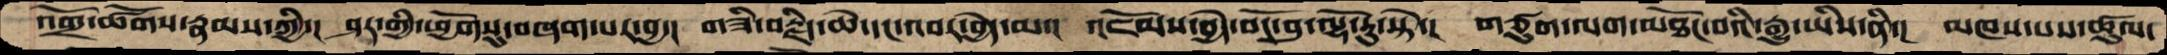འགྲོ་ཚོགས་རྣམས་ཀྱི་།  ཤར་གྱི་ཕྱོགསུ་བཞག་པར་བྱ་།  གཟི་བརྗིད་ཆེ་དང་འབར་བྱེད་མ་།  འཇོམས་བྱེད་བོང་བུ་ལྷོ་རུ་སྟེ་།  གཙུག་ལག་མཐོང་བའི་རྒྱུ་ཡིས་ནི་།  མཁས་པས་ཚུལ་
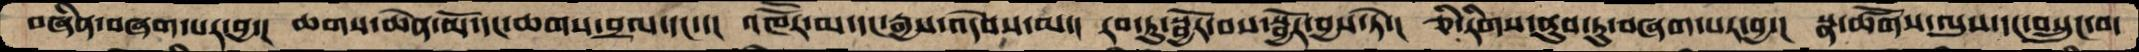བཞིན་བཞག་པར་བྱ་།  ཆགས་ཆེན་མོ་དང་ཆགས་བྲལ་དང་་།  འཁཽར་མ་དང་རྒྱས་འདེབས་མ་།  རབ་ཏུ་སྦྱོར་བས་སྦྱོར་བྱས་ཏེ་།  ཅི་རིགས་ནུབ་ཏུ་བཞག་པར་བྱ་།  སྣ་ཚོགས་ལུས་དང་བསྲུང་བ་
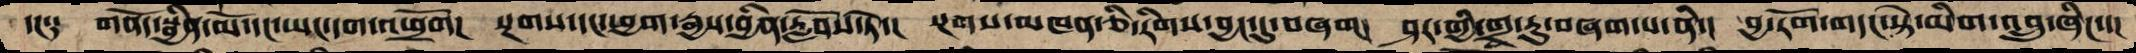དང༑   གནོོད་སྦྱིན་མོ་དང་ཡང་དག་འཕྲོག།   སྔགས་དང་ཕྱག་རྒྱས་བྱིན་རློབས་ཏེ་།  སྔགས་མཁན་ཅི་རིགས་བྱང་དུ་བཞག།  ཤར་གྱི་གྲྭ་རུ་བཞག་པ་ནི་།  བྱ་རོག་གདང་སྟེ་མིག་འབྲུ་ཞིང་་།
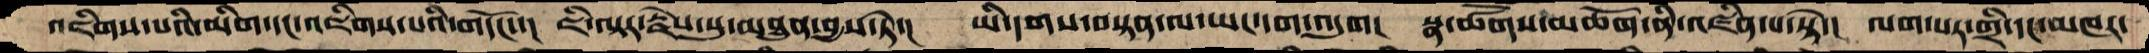འཇིགས་པའི་མིག་དང་འཇིགས་པའི་གདོང་་།  ཇི་ལྟར་རྗེས་སུ་མཐུན་བྱས་ཏེ་།  ཡི་དགས་བསྟན་ལ་ཡང་དག་འདུག།  སྣ་ཚོགས་མཆོག་ནི་འཛིན་པ་སྟེ་།  ལག་པར་གྲི་དང་མཁར་
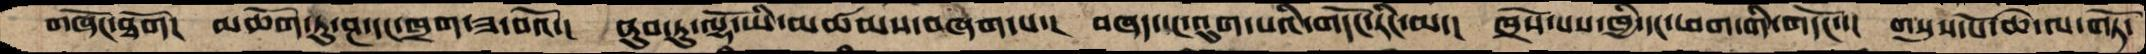གཞོང་ཐོག།  མཆོག་ཏུ་ཤ་དང་ཁྲག་ཟ་བའོ་།  ནུབ་ཏུ་ལྷོ་ཡི་མཚམས་བཞག་པ་།  བཞད་དང་འུག་པའི་གདོང་རིང་མ་།  ཁྲོས་པས་ཁྱི་དང་ཕག་གི་གདོང་་།  གསུས་པོ་ཆེ་ལ་གཏོ་
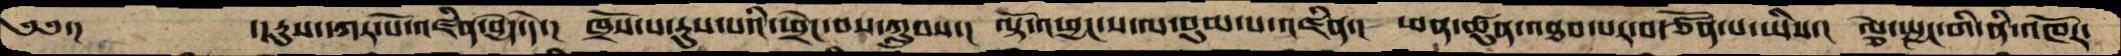༄༅་།      ་།རུས་དཀར་པོ་འཛིན་བྱེད་དེ་།   ཁྲོས་པ་རུས་པའི་ཕྲེང་བས་ཀླུབས་།   ལྟོ་འཕྱང་ས་ལ་བུམ་པ་འཛིན་།  ཕན་ཚུན་འཐབ་པར་བརྩོན་པ་ཡིས་།  ལྕེ་སྤྱང་གི་ནི་འཁོར་
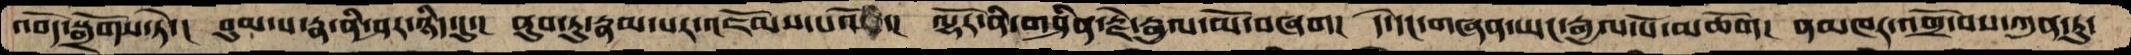འབོད་སྒྲོགས་ཏེ་།   བུམ་པ་རྣ་ནི་ཤར་ཉིད་དུ་།  ནུབ་ཏུ་རྣམ་པར་འཇོམས་པའོ་།  ལྷོར་ནི་གཤིན་རྗེ་རྒྱལ་མོ་བཞག།  དེ་དང་གཞན་ཡང་རྒྱལ་པོ་མཆོག།  ནམཁར་འགྲོ་བས་ཀུན་ཏུ་
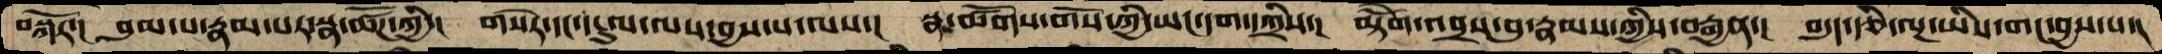བསྐོར་།  བུམ་པ་རྣམ་པར་སྣ་ཚོཌ་ཀྱི་། གསེར་དང་དངུལ་ལས་བྱས་པ་ལས་།  སྣ་ཚོགས་གོས་ཀྱི་ཡང་དག་དཀྲིས་།  མྟེོག་འབྲས་བུ་རྣམས་ཀྱིས་བརྒྱན་།  བདུད་རྩི་ལྔ་ཡིས་གང་བྱས་པ་།
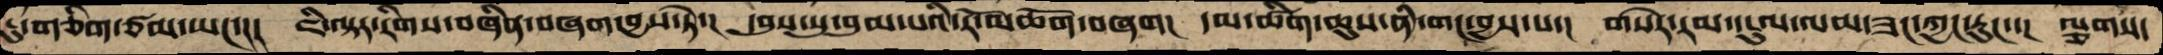རུ་གཅིག་ཙམ་ཡང་་།  ཇི་ལྟར་རིགས་བཞིན་བཞག་བྱས་ཏེ་།  དབུས་སུ་བུམ་པའི་རོ་མཆོག་བཞག།  དམ་ཚིག་ཆུས་ནི་གང་བྱས་པ་།  གསེར་རམ་དངུལ་ལམ་ཟང་ཀྱང་རུང་་།  ལྕགས་
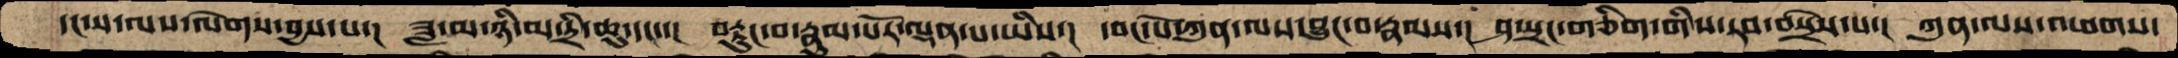དང་ས་ལས་ལེགས་བྱས་པ་།  ཟླ་མ་ཉི་མ་དྲི་ཆུ་དང་་།  བརྟུང་བ་རྣུམ་པོར་ལྡན་པ་ཡིས་།  དབང་པོ་ཀུན་ལས་འབྱུང་བ་རྣམས་།  ཤ་སྲང་གཅིག་གིས་རབ་བསྲེས་པ་།  ཀུན་ལས་འཕགས་
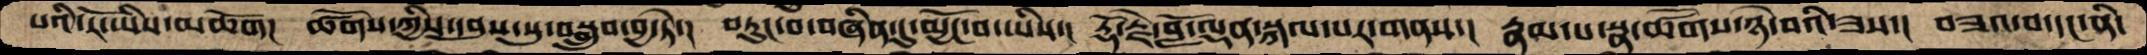པའི་རོ་ཡིས་མཆོག།  ཚོགས་ཀྱིས་དབུས་སུ་བསྒྲུབ་བྱ་ཏེ་།  བཏུང་བ་བཞིན་དུ་མྱོང་བ་ཡིས་།  རྡོ་རྗེ་བློ་ལྡན་སྐལ་པར་གནས་།  རྣམ་པ་སྣ་ཚོགས་ཉེ་བའི་ཟས་།  བཟའ་བ་དང་ནི་
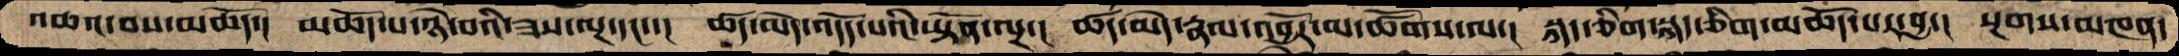འཆའ་བས་མཆོད་།  མཆོད་པ་ཉེ་བའི་ཟས་ལྔ་དང་་།  ཚད་མེད་འདོད་པའི་ཡྟོན་ལྔ་།  ཚད་མེད་རྣལ་འབྱོར་མ་ཚོགས་ལ་།  སྐད་ཅིག་སྐད་ཅིག་མཆོད་པར་བྱ་།  སྔགས་མཁན་
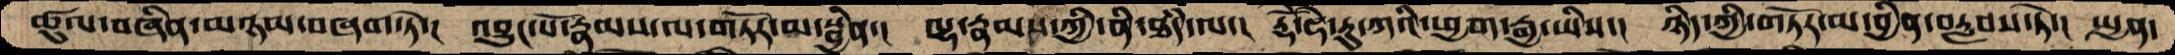ཚུལ་བཞིན་མཉམ་བཞག་ཏེ་།  འབྱུང་པོ་རྣམས་ལ་གཏོར་མ་སྦྱིན་།  ལྷ་རྣམས་ཀྱི་ནི་ཐཾད་ལ་།  རྡོེ་ཧེ་རུ་ཀའི་ཕྱག་རྒྱ་ཡིས་།  ཉིད་ཀྱི་གཏོར་ན་བྱིན་བརླབས་ཏེ་།  སྤྱན་
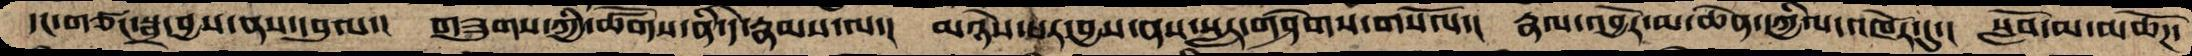དང་གཙང་སྦྲ་བྱས་ནས་དབུལ་།  གཟུགས་ཀྱི་ཚོགས་ནི་དེ་རྣམས་ལ་།  མཉེས་པར་བྱས་ནས་སླར་གཤེགས་གསོལ་།  རྣལ་འབྱོར་མ་ཆེན་དཀྱིལ་འཁོར་དུ་།  སློབ་མ་མཆོཌ་
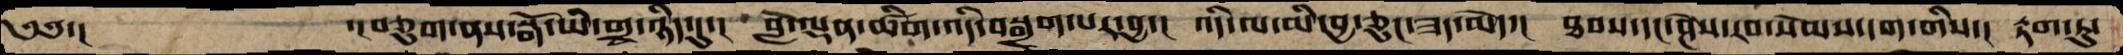༄༅་།           ་།བཅུག་ནས་སྒོ་ཡི་གྲྭ་ཉིད་དུ་།  བློ་ལྡན་ཚིག་འདི་བསྒྲགས་པར་བྱ་།  འདི་ལ་མི་བྱ་ཅུང་ཟད་མེད་།  ཐབས་དང་ཤེས་རབ་སེམས་དག་གིས་།  རྟག་ཏུ་
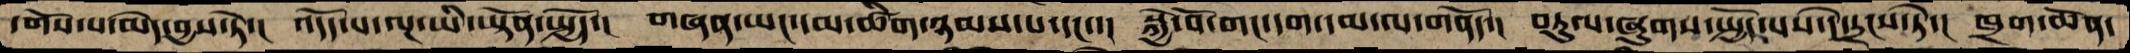དགོས་པ་མེད་བྱས་ཏེ་།  འདོད་པ་ལྔ་ཡི་ཡྟོན་སྤྱོད་།  གཞན་ཡང་དམ་ཚིག་ཉམས་པ་དང་་།  སྐྱེ་བོ་གང་དག་དམ་ལ་གནོད་།  བཏུལ་ཞུགས་སྤྱོད་པས་དེ་དྲངས་ཏེ་།  ཁྲག་ཆེན་
